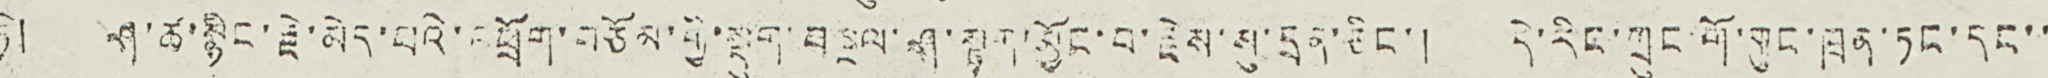ཏེ། ཤ་ཚ་སྙིངརྗེ་མེད་པའི་འཕྲོག་བཅོམ་གྱི་སྡུག་བསྔལ་ཤ་སྟག་མྱོང་བ་རྗེས་སུ་དྲན་ཅིང་། དེ་རིང་ཀྲུང་གོ་གུང་ཁྲན་ཏང་དང་་
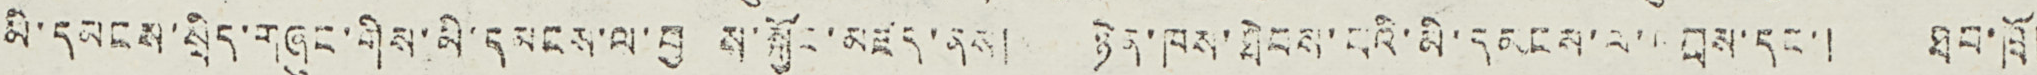མི་དམངས་སྲིད་གཞུང་གིས་མི་དམངས་ལ་བྱ ས་སྐྱོང་མཛད་ནས། ཉེན་ཁས་ཐེབས་པའི་མི་དམངས་ལ་འབྲས་དང་། ཐབ་ཁྲོ།
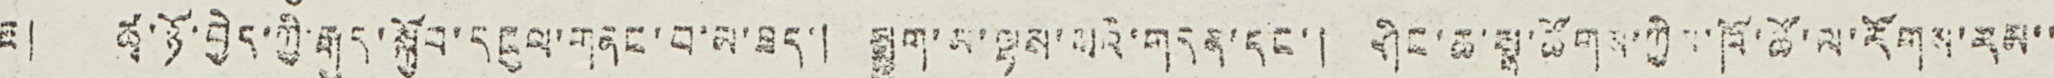ཇ། ཚྭ་ཉོ་བྱེད་ཀྱི་རྒུད་སྐྱོབ་དངུལ་གནང་བ་མ་ཟད་། སྨྱུག་མ་ལྷས་པའི་གདན་དང་། ཤིང་ཆ་སྣ་ཚོགས་ཀྱིས་ཁོ་ཚོ་ལ་རོགས་རམ་་
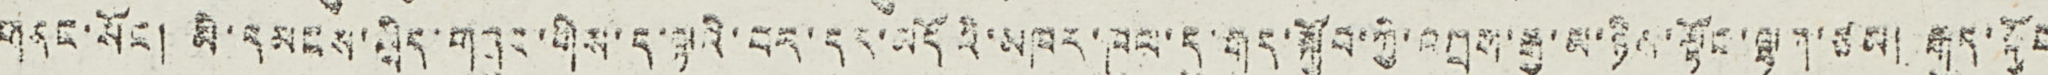གནང་སོང ། མི་དམངས་སྲིད་གཞུང་གིས་ད་ལྟའི་བར་དར་མདོའི་མཁར་ཁུལ་དུ་རྒུད་སྐྱོབ་ཀྱི་འཀྲས་རྒྱ་མ་ཉིས་སྟོང་ལྷག་ཙམ། རྒུད་སྐྱོབ
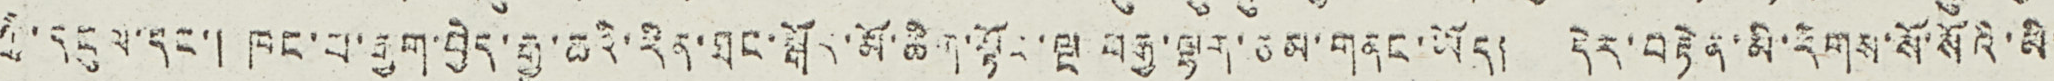གྱི་དངུལ་དང་། ཁང་པ་རྒྱག་བྱེད་རྒྱུ་ཆའི་རིན་ཐང་སྒོར་མོ་ཆིག་སྟོང་ལྔ་བརྒྱ་ལྟག་ཙམ་གནང་ཡོད། དེར་བརྟེན་མི་རིགས་སོ་སོའི་མི་
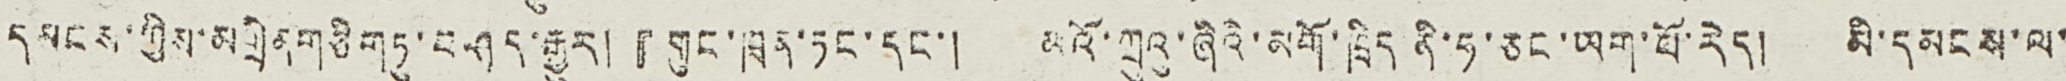དབངས་ཀྱིས་མགྲིན གཅིགཏུ་བཤད་རྒྱུར། 『གུང་ཁྲན་ཏང་དང་། མའོ་ཀྲུའུ་ཞིའི་མགོ་ཁྲིད ནི་ཧ་ཅང་ཡག་པོ་རེད། མི་དམངས་ལ་
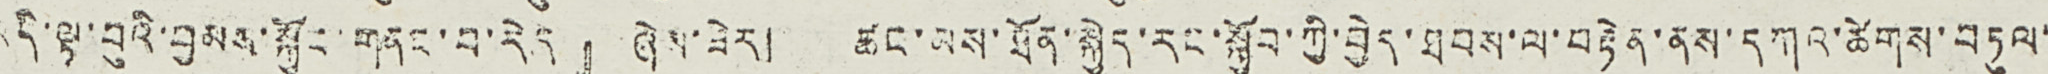འདི་ལྟ་བུའི་བྱམས་སྐྱོང་གནང་བ་རེད』 ཞེས་ཟེར། ཚང་མས་ཐོན་སྐྱེད་རང་སྐྱོབ་ཀྱི་བྱེད་ཐབས་ལ་བརྟེན་ནས་དཀའ་ཚེགས་བཏུལ་
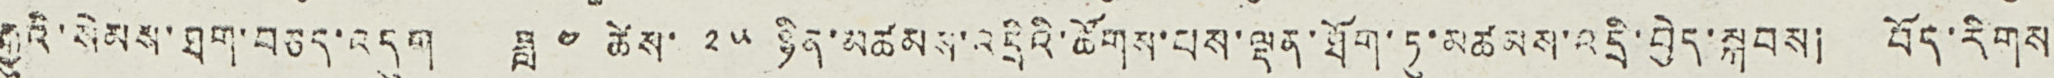རྒྱུའི་སེམས་ཐག་བཅད་འདུག ཟླ ༤ ཚེས་ ༢༥ ཉིན་མཚམས་འདྲིའི་ཚོགས་པས་ལྡན་ཐོག་ཏུ་མཚམས་འདྲི་བྱེད་སྐབས། བོད་རིགས་
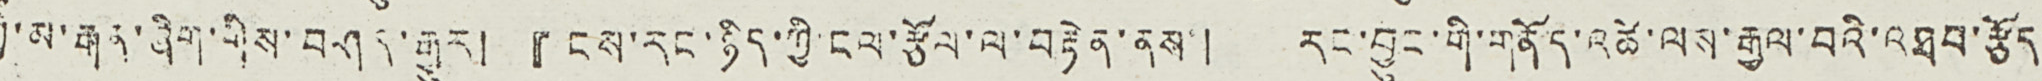ཀྱི་མ་རྒན་ཞིག་གིས་བཤད་རྒྱུར། 『ངས་རང་ཉིད་ཀྱི་ངལ་རྩོལ་ལ་བརྟེན་ནས་། རང་བྱུང་གི་གནོད་འཚེ་ལས་རྒྱལ་བའི་འཐབ་རྩོད་
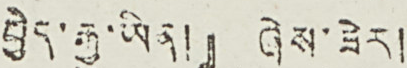བྱེད་རྒྱུ་ཡིན།』ཞེས་ཟེར།
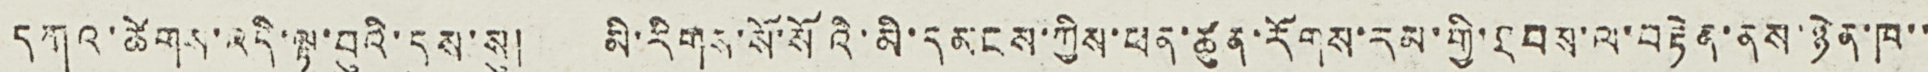དཀའ་ཚེགས་འདི་ལྟ་བུའི་དུས་སུ། མི་རིགས་སོ་སོའི་མི་དམངས་ཀྱིས་ཕན་ཚུན་རོགས་རམ་གྱི་ཐབས་ལ་བརྟེན་ནས་ཉེན་ཁ་་
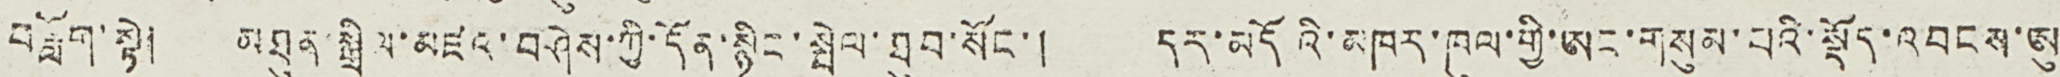བཟློག་སྟེ། མཐུན་སྒྲིལ་མཛའ་བཤེས་ཀྱི་དོན་སྙིང་སྤེལ་ཐུབ་སོང་། དར་མདོའི་མཁར་ཁུལ་གྱི་ཨང་གསུམ་པའི་སྡོད་འབངས་ཨུ་
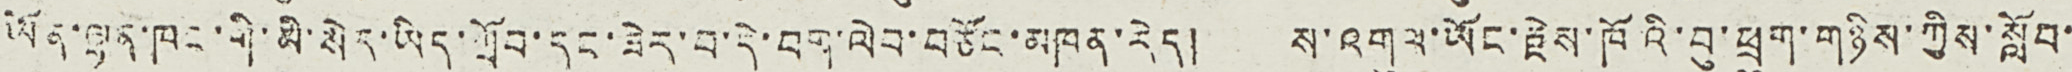ཡོན་ལྷན་ཁང་གི་མི་སེར་ཡིད་གྲོབ་དུང་ཟེར་བ་དེ་བག་ལེབ་བཙོང་མཁན་རེད། ས་འགུལ་ཡོང་རྗེས་ཁོའི་བུ་ཕྲུག་གཉིས་ཀྱིས་སློབ་
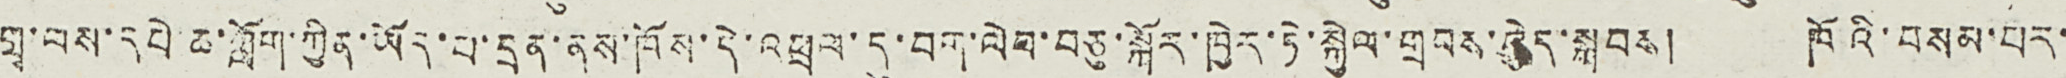གྲྭ་ལས་དཔེ་ཆ་གློག་ཀྱིན་ཡོད་པ་དྲན་ནས་ཁོས་དེ་འཕྲལ་དུ་བག་ལེབ་བཅུ་སྐོར་ཁྱེར་ཏེ་སྐྱེལ་གྲབས་བྱེད་སྐབས། ཁོའི་བསམ་པར་
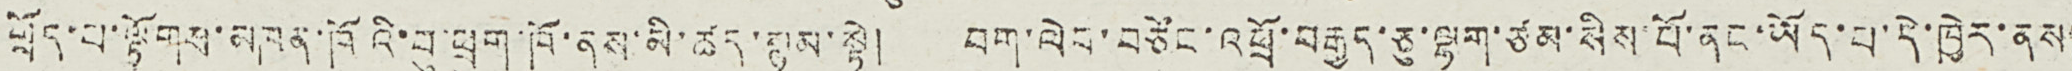གྲོད་པ་ལྟོགས་མཁན་ཁོའི་བུ་ཕྲུག་ཁོ་ནས་མི་ཚད་སྙམ་སྟེ། བག་ལེབ་བཙོང་འཕྲོ་བརྒྱད་ཅུ་ལྷག་ཙམ་སིལ་པོ་ནང་ཡོད་པ་དེ་ཁྱེར་ནས།
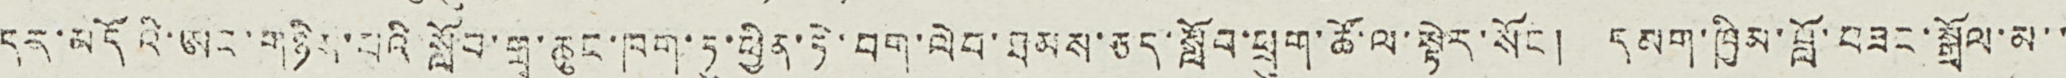དར་མདོའི་ཨང་གཉིས་པའི སློབ་གྲྭ་ཆུང་ཁག་ཏུ་ཕྱིན་ཏེ་བག་ལེབ་ཐམས་ཅད་སློབ་ཕྲུག་ཚོ་ལ་སྟེར་སོང ། དམག་ཁྱིམ་བློ་བཟང་སྒྲོལ་མ་་
